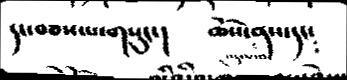དང་བཅས་པ་གསུང་།   ཆོས་ནས་དང༴
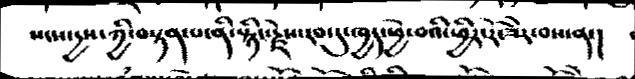སངས་ྱས་ཀྱི་བསྟན་པ་ནི་སྙིད་རྗེས་རབ་དུ་ཁྱད་ཕྱེ་བའི་ཕྱིར་རོ་ཟེར་བས་ན་།
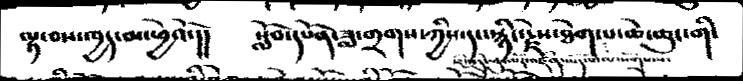ལྟ་བས་ཁྱད་མ་ཕྱེའོ་།།     སློབ་དཔོན་ཟླ་གྲགས་ཀྱིས་དང་སྙིད་རྗེས་ཐེག་པ་ཆེ་ཆུང་གི་
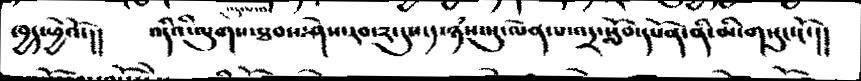ཁྱད་ཕྱེའོ་།།      འདིའི་ལུགས་ཐབས་ཤེས་རབ་༢་དུས་༡་ཉཾས་སུ་ལེན་པ་འདྲ་སློབ་དཔོན་ནི་མི་གསུང་ངོ་།།
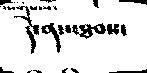དེ་ནས་ཐབས་
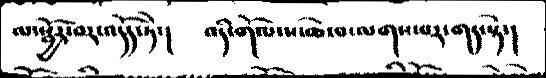ལ་སྦྱོར་བར་འདོད་ཏེ་།  འདི་གོལ་ས་ཆེ་བ་ལགས་པར་གད་སྟེ་།
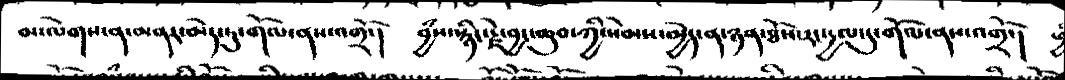མ་ལེགས་ན་མནར་མེད་ཏུ་གོལ་ནས་འགྲོ་།   བྱཾས་སྙིང་རྗེ་བྱང་ཆུབ་ཀྱི་སེམས་མྱེད་ན་ཉན་ཐོས་རང་དྱལ་དུ་གོལ་ནས་འགྲོ་།  ཕྱི
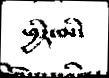ཕྱིར་མི་
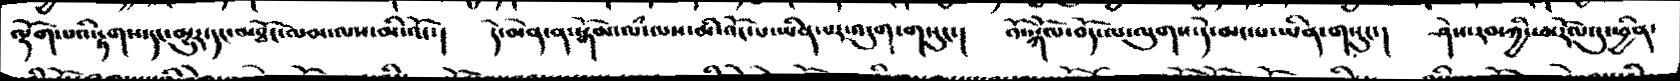ལྡོག་པའི་རྟགས་དང་མྱུར་དང་མཐོང་ལམ་ལས་མི་འོང་།   དེ་མེན་ན་སྒོམ་ལཾ་ལས་མི་འོང་པ་ཡིན་པར་འདུག་གསུང་།  འོ་སྐོལ་བོད་ལ་ལུགས་དེ་མང་པ་ཡིན་གསུང་།  ཤེས་རབ་ཀྱི་ཕ་རོལ་དུ་ཕྱིན་
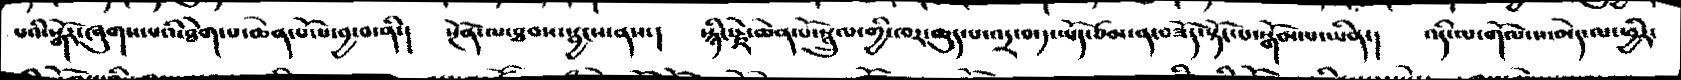པའི་སྒོར་ཞུགས་པའི་ཐེག་པ་ཆེན་པོ་པ་བྱ་བ་ནི་།  སྔོན་ལ་ཐབས་སྦྱངས་ནས་།  སྙིང་རྗེས་ཆེན་པོ་སྦྲུལ་གྱི་ཁར་ཆུད་པ་འདྲ་བ་༡་ཡོད་ཙམ་ན་བཟོད་སྟོང་པ་སྒོམ་པ་ཡིན་།  འདི་ལ་གོལ་ས་མེད་ལ་ཕྱིར་
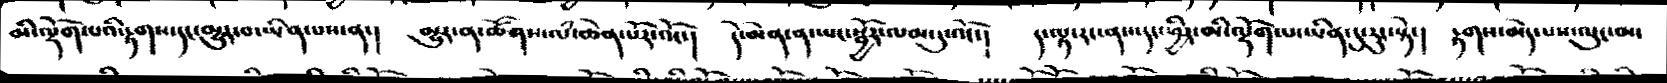མི་ལྡོག་པའི་རྟགས་དང་མྱུར་བ་ཡིན་པས་ན་།   མྱུར་ན་ཚོགས་ལཾ་ཆེན་པོར་འོང་།   དེ་མེན་ན་ཡང་སྦྱོར་ལམ་དུ་འོང་།   ད་ལྟ་རང་ནས་དང་ཕྱིར་མི་ལྡོག་པ་ཡིན་དུ་རུང་སྟེ་།   རྟགས་མེད་པས་ལུང་མ་
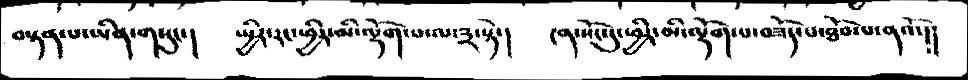བསྟན་པ་ཡིན་གསུང་།    སྤྱིར་རང་ཕྱིར་མི་ལྡོག་པ་ལ་༣་སྟེ་།   ངན་སོང་དུ་ཕྱིར་མི་ལྡོག་པ་བཟོད་པ་ཐོབ་པ་ནའོ་།།
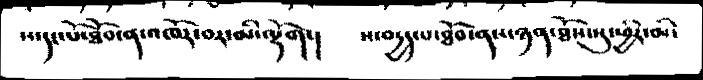ས་དངད་པོ་ཐོབ་ན་འཁོར་བར་མི་ལྡོག་།   ས་བདྱད་པ་ཐོབ་ནས་ཉན་ཐོས་སུ་ཕྱིར་མི་
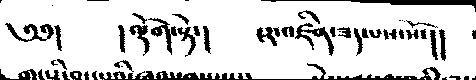༄༅།  ། ལྡོག་སྟེ་།  ངར་འཛིན་ཟད་པས་སོ་།།
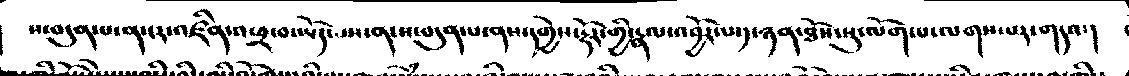ས་བདུན་པ་ན་ངར་འཛིན་འཕྲ་བ་ཡོད་པས་ན་ས་བདུན་པ་ནས་དགྱེས་རྡོར་གྱི་རྣལ་འབྱོར་པ་༡་ཉན་ཐོས་སུ་ལོག་པ་ལགས་པར་གདབ་།
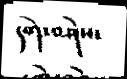དགེ་བཤེས་
